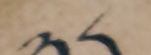༢༨
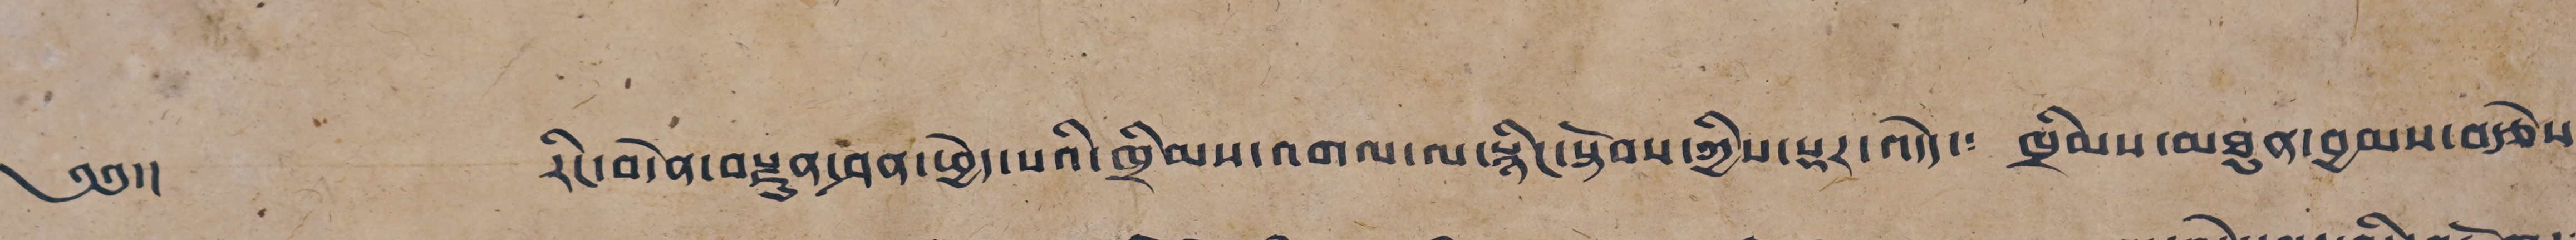༄༅།། རིང་བདེན་བརྫུན་ཤན་ཕྱེད་པའི་ཁྲིམས་འགལ་ལ་རྙིང་སྟོབས་ཀྱིས་སྡར་འདོད་༴ ཁྲིམས་མཐུན་བྱམས་བརྩེས་
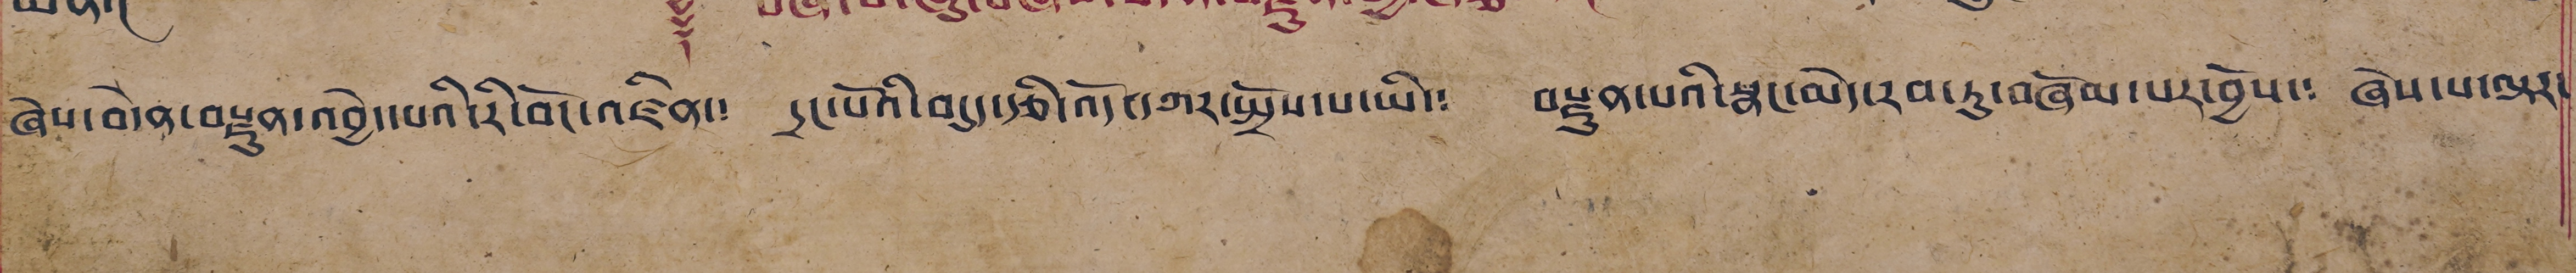ཞེས་བདེན་བརྫུན་འབྱེད་པའི་རི་བོང་འཛིན་༴ དྲང་པོའི་བདུད་རྩི་འོད་དཀར་སྤྲོས་པ་ཡི་༴ བརྫུན་པའི་སྣང་མེད་རབ་ཏུ་བཞོམ་པར་བྱོས་༴ ཞེས་པ་ལྟར་
